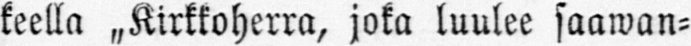keella joka luulee saawan-
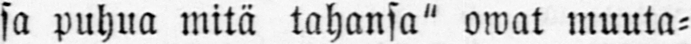sa puhua mitä tahansa" owat muuta-
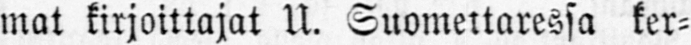mat kirjoittajat U. Suomettaressa ker-
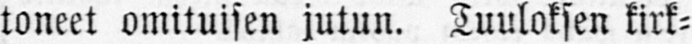toneet omituisen jutun. Tuuloksen kirk-
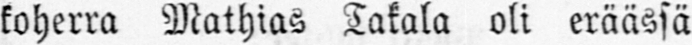koherra Mathias Takala oli eräässä
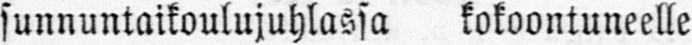sunnuntaikoulujuhlassa kokoontuneelle
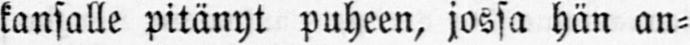kansalle pitänyt puheen, jossa hän an-
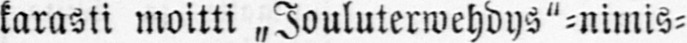karasti moitti „Jouluterwehdys"-nimis-
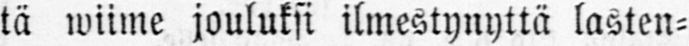tä wiime jouluksi ilmestynyttä lasten-
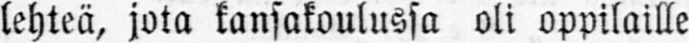lehteä, jota kansakoulussa oli oppilaille
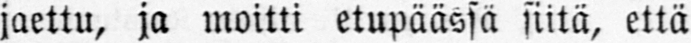jaettu, ja moitti etupäässä siitä, että
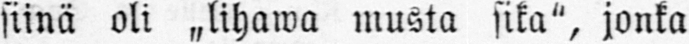siinä oli „lihawa musta sika", jonka
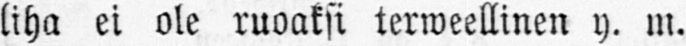liha ei ole ruoaksi terweellinen y. m.
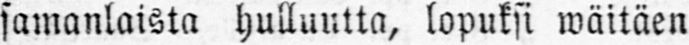samanlaista hulluutta, lopuksi wäitäen
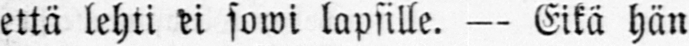että lehti ei sowi lapsille. — Eikä hän
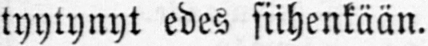tyytynyt edes siihenkään.
